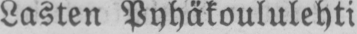Lasten Pyhäkoululehti
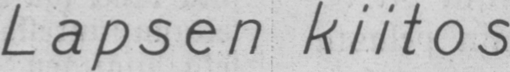Lapsen kiitos.
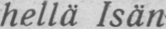Oi, hellä Isän sydän, kuin holhoot minua;
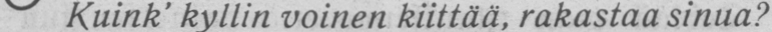Kuink' kyllin voinen kiittää, rakastaa sinua?
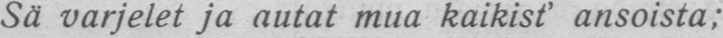Sä varjelet ja autat mua kaikist' ansoista;
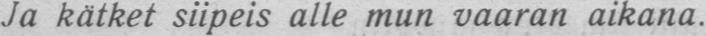Ja kätket siipeis alle mun vaaran aikana.
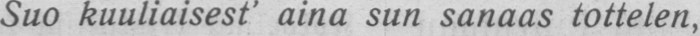Suo kuuliaisest' aina sun sanaas tottelen,
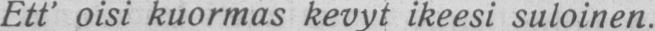Ett' oisi kuormas kevyt ikeesi suloinen.
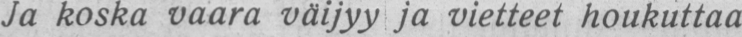Ja koska vaara väijyy ja vietteet houkuttaa
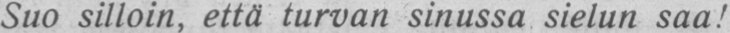Suo silloin, että turvan sinussa sielun saa!
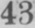43
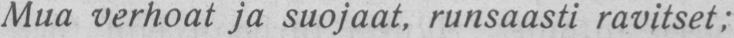Mua verhoat ja suojaat, runsaasti ravitset;
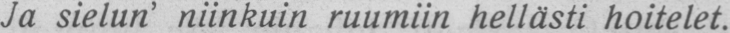Ja sielun' niinkuin ruumiin hellästi hoitelet.
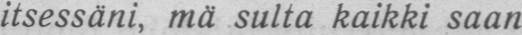Vaikk' köyhä itsessäni, mä sulta kaikki saan.
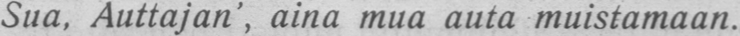Sua, Auttajan', aina mua auta muistamaan.
